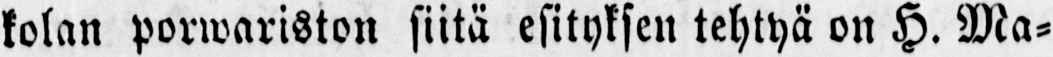kolan porwariston siitä esityksen tehtyä on H. Ma-
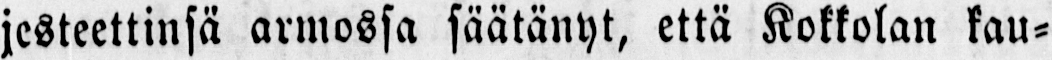jesteettinsä armossa säätänyt, että Kokkolan kau-
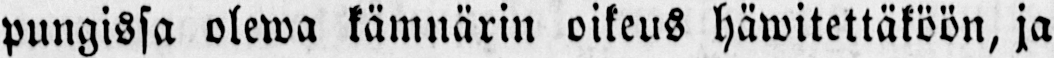pungissa olewa kämnärin oikeus häwitettäköön, ja
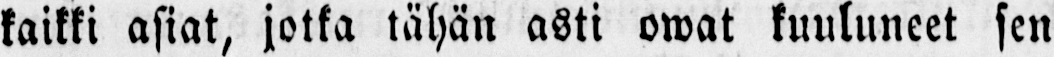kaikki asiat, jotka tähän asti owat kuuluneet sen
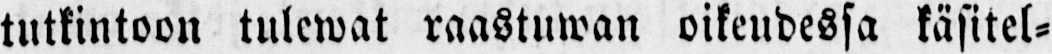tutkintoon tulewat raastuwan oikeudessa käsitel-
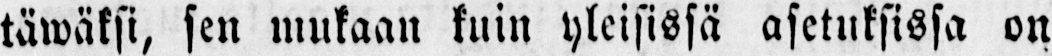täwäksi, sen mukaan kuin yleisissä asetuksissa on
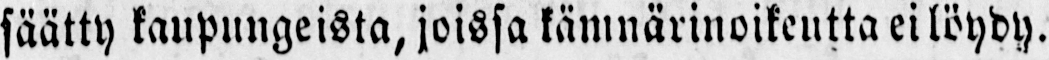säätty kaupungeista, joissa kämnärinoikeutta ei löydy.
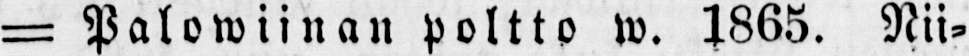— Palowiinan poltto w. 1865. Nii-
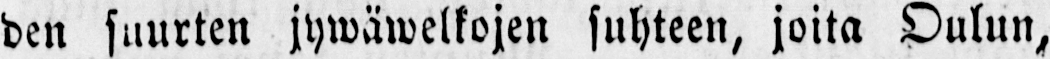den suurten jywäwelkojen suhteen, joita Oulun,
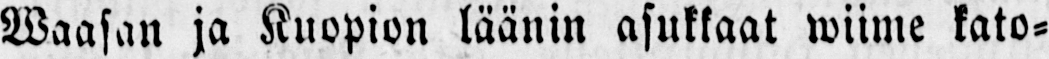Waasan ja Kuopion läänin asukkaat wiime kato-
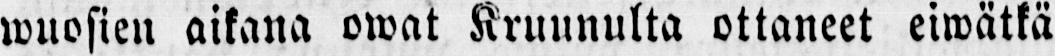wuosien aikana owat Kruunulta ottaneet eiwätkä
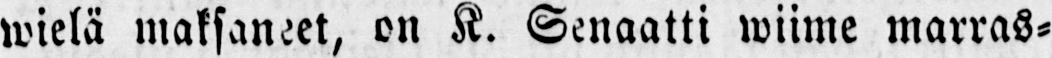wielä maksaneet, on K. Senaatti wiime marras-
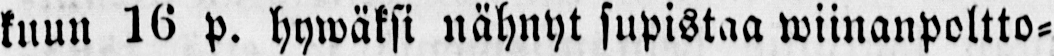kuun 16 p. hywäksi nähnyt supistaa wiinanpoltto-
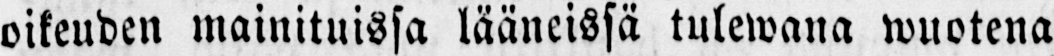oikeuden mainituissa lääneissä tulewana wuotena
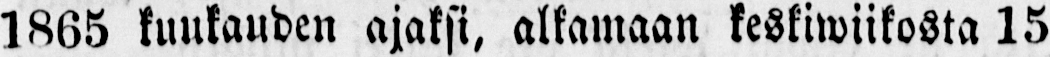1865 kuukauden ajaksi, alkamaan keskiwiikosta 15
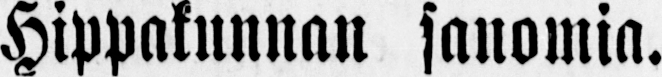Hippakunnan sanomia.
